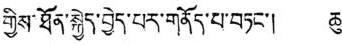གྱིས་ཐོན་སྐྱེད་བྱེད་པར་གནོད་པ་བཏང་། ཆུ་
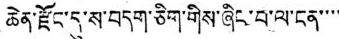ཆེན་རྫོང་དུ་ས་བདག་ཅིག་གིས་ཞིང་བ་ལ་ངན་་་་་
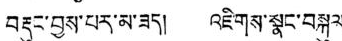བརྡུང་བྱས་པར་མ་ཟད། འཇིགས་སྣང་བསྐུལ་
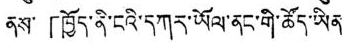ནས་「ཁྱོད་ནི་ངའི་དཀར་ཡོལ་ནང་གི་ཚོད་ཡིན་
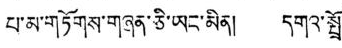པ་མ་གཏོགས་གཞན་ཅི་ཡང་མིན། དགའ་སྤྲོ་
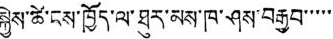སྐྱེས་ཚེ་ངས་ཁྱོད་ལ་ཐུར་མས་ཁ་ཤས་བརྒྱབ་་་་་་
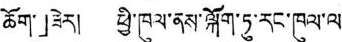ཆོག་」ཟེར། ཕྱི་ཁུལ་ནས་ལྐོག་ཏུ་རང་ཁུལ་ལ་
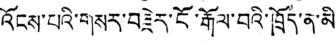འོངས་པའི་གསར་བརྗེར་ངོ་རྒོལ་བའི་ཁྲོད་ན་མི་
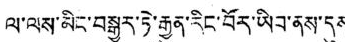ལ་ལས་མིང་བསྒྱུར་ཏེ་རྒྱུན་རིང་བོར་ཡིབ་ནས་དུས
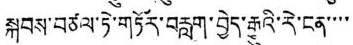སྐབས་བཙལ་ཏེ་གཏོར་བརླག་བྱེད་རྒྱུའི་རེ་ངན་་་་
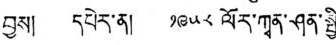བྱས། དཔེར་ན། ༡༩༥༨ ལོར་ཀྭན་ཤན་སྤྱི་
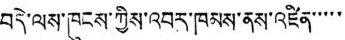བདེ་ལས་ཁུངས་ཀྱིས་འབར་ཁམས་ནས་འཛིན་་་་་
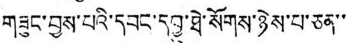བྱས་པའི་དབང་དབྱུ་ཐེ་སོགས་ཉེས་པ་ཅན་་
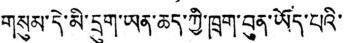གསུམ་དེ་མི་དྲུག་ཡན་ཆད་ཀྱི་ཁྲག་བུན་ཡོད་པའི་
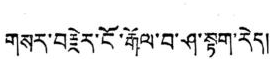གསར་བརྗེར་ངོ་རྒོལ་བ་ཤ་སྟག་རེད།
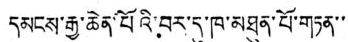དམངས་རྒྱ་ཆེན་པོའི་བར་དུ་ཁ་མཐུན་པོ་གཏན་་་
